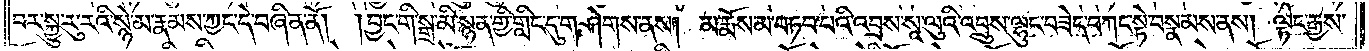བར་སྐྱུ་རུ་རའི་སྙེ་མ་རྣམས་ཀྱང་དེ་བཞིན་ནོ། །བྱང་གི་སྒྲ་མི་སྙན་གྱི་གླིང་དུ་གཤེགས་ནས། མ་རྨོས་མ་བཏབ་པའི་འབྲས་སཱ་ལུའི་འབྲུས་ལྷུང་བཟེད་བཀང་སྟེ་བསྣམས་ནས། ལྟེང་རྒྱས་
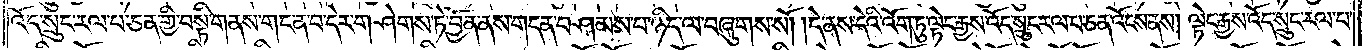འོད་སྲུང་རལ་པ་ཅན་གྱི་བསྟི་གནས་གང་ན་བ་དེར་གཤེགས་ཏེ་བྱོན་ནས་གདན་བཤམས་པ་ཉིད་ལ་བཞུགས་སོ། །དེ་ནས་དེའི་འོག་ཏུ་ལྟེང་རྒྱས་འོད་སྲུང་རལ་པ་ཅན་འོངས་ནས། ལྟེང་རྒྱས་འོད་སྲུང་རལ་པ་
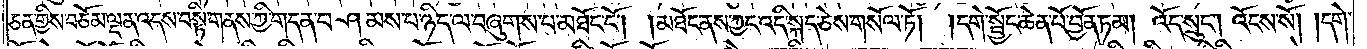ཅན་གྱིས་བཅོམ་ལྡན་འདས་བསྟི་གནས་ཀྱི་གདན་བཤམས་པ་ཉིད་ལ་བཞུགས་པ་མཐོང་ངོ༌། །མཐོང་ནས་ཀྱང་འདི་སྐད་ཅེས་གསོལ་ཏོ། །དགེ་སྦྱོང་ཆེན་པོ་བྱོན་ཏམ། འོད་སྲུང༌། འོངས་སོ། །དགེ་
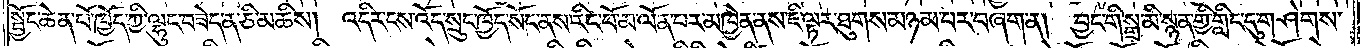སྦྱོང་ཆེན་པོ་ཁྱོད་ཀྱི་ལྷུང་བཟེད་ན་ཅི་མཆིས། འདིར་ངས་འོད་སྲུང་ཁྱོད་སོང་ནས་རིང་པོ་མ་ལོན་པར་མཁྱེན་ནས་ཇི་ལྟར་ཐུགས་མཉམ་པར་བཞག་ན། བྱང་གི་སྒྲ་མི་སྙན་གྱི་གླིང་དུ་གཤེགས་
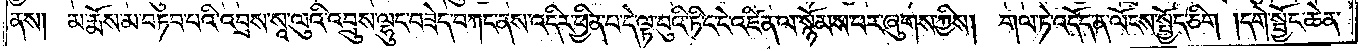ནས། མ་རྨོས་མ་བཏབ་པའི་འབྲས་སཱ་ལུའི་འབྲུས་ལྷུང་བཟེད་བཀང་ནས་འདིར་ཕྱིན་པ་དེ་ལྟ་བུའི་ཏིང་ངེ་འཛིན་ལ་སྙོམས་པར་ཞུགས་ཀྱིས། གལ་ཏེ་འདོད་ན་ལོངས་སྤྱོད་ཅིག །དགེ་སྦྱོང་ཆེན་
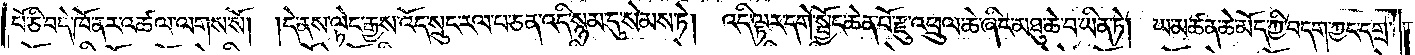པོ་ཅི་བདེ་ཁོ་ནར་འཚལ་ལགས་སོ། །དེ་ནས་ལྟེང་རྒྱས་འོད་སྲུང་རལ་པ་ཅན་འདི་སྙམ་དུ་སེམས་ཏེ། འདི་ལྟར་དགེ་སྦྱོང་ཆེན་པོ་རྫུ་འཕྲུལ་ཆེ་ཞིང་མཐུ་ཆེ་བ་ཡིན་ཏེ། ཡ་མཚན་ཆེ་མོད་ཀྱི་བདག་ཀྱང་དགྲ་
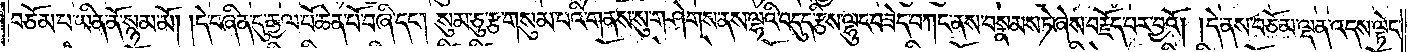བཅོམ་པ་ཡིན་ནོ་སྙམ་མོ། །དེ་བཞིན་དུ་རྒྱལ་པོ་ཆེན་པོ་བཞི་དང༌། སུམ་ཅུ་རྩ་གསུམ་པའི་གནས་སུ་གཤེགས་ནས་ལྷའི་བདུད་རྩིས་ལྷུང་བཟེད་བཀང་ནས་བསྣམས་ཏེ་ཞེས་བརྗོད་པར་བྱའོ། །དེ་ནས་བཅོམ་ལྡན་འདས་ལྟེང་
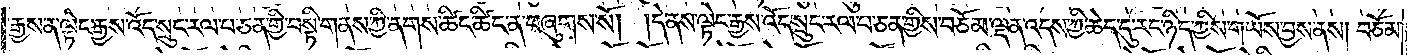རྒྱས་ན་ལྟེང་རྒྱས་འོད་སྲུང་རལ་པ་ཅན་གྱི་བསྟི་གནས་ཀྱི་ནགས་ཚིང་ཚིང་ན་བཞུགས་སོ། །དེ་ནས་ལྟེང་རྒྱས་འོད་སྲུང་རལ་པ་ཅན་གྱིས་བཅོམ་ལྡན་འདས་ཀྱི་ཆེད་དུ་རང་ཉིད་ཀྱིས་གཡོས་བྱས་ནས། བཅོམ་
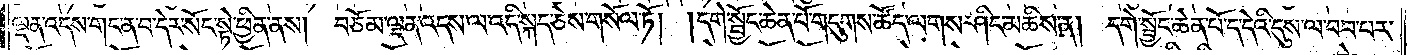ལྡན་འདས་གང་ན་བ་དེར་སོང་སྟེ་ཕྱིན་ནས། བཅོམ་ལྡན་འདས་ལ་འདི་སྐད་ཅེས་གསོལ་ཏོ། །དགེ་སྦྱོང་ཆེན་པོ་གདུགས་ཚོད་ལགས་ཤིང་མཆིས་ན། དགེ་སྦྱོང་ཆེན་པོ་ད་དེའི་དུས་ལ་བབ་པར་
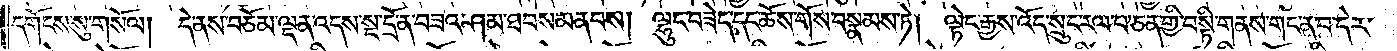དགོངས་སུ་གསོལ། དེ་ནས་བཅོམ་ལྡན་འདས་སྔ་དྲོ་ན་བཟའ་ཤམ་ཐབས་མནབས། ལྷུང་བཟེད་དང་ཆོས་གོས་བསྣམས་ཏེ། ལྟེང་རྒྱས་འོད་སྲུང་རལ་པ་ཅན་གྱི་བསྟི་གནས་གང་ན་བ་དེར་
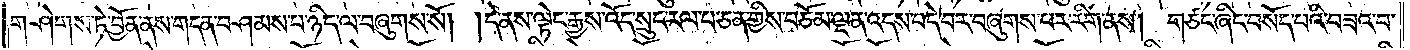གཤེགས་ཏེ་བྱོན་ནས་གདན་བཤམས་པ་ཉིད་ལ་བཞུགས་སོ། །དེ་ནས་ལྟེང་རྒྱས་འོད་སྲུང་རལ་པ་ཅན་གྱིས་བཅོམ་ལྡན་འདས་བདེ་བར་བཞུགས་པར་རིག་ནས། གཙང་ཞིང་བསོད་པའི་བཟའ་བ་
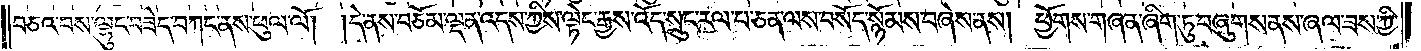བཅའ་བས་ལྷུང་བཟེད་བཀང་ནས་ཕུལ་ལོ། །དེ་ནས་བཅོམ་ལྡན་འདས་ཀྱིས་ལྟེང་རྒྱས་འོད་སྲུང་རལ་པ་ཅན་ལས་བསོད་སྙོམས་བཞེས་ནས། ཕྱོགས་གཞན་ཞིག་ཏུ་བཞུགས་ནས་ཞལ་ཟས་ཀྱི་
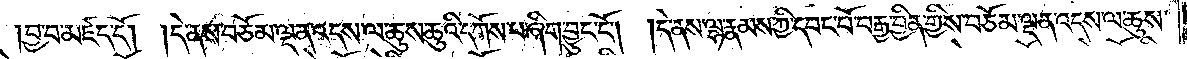བྱ་བ་མཛད་དོ། །དེ་ནས་བཅོམ་ལྡན་འདས་ལ་ཆུས་ཆུའི་དགོས་པ་ཞིག་བྱུང་ངོ༌། །དེ་ནས་ལྷ་རྣམས་ཀྱི་དབང་པོ་བརྒྱ་བྱིན་གྱིས་བཅོམ་ལྡན་འདས་ལ་ཆུས་
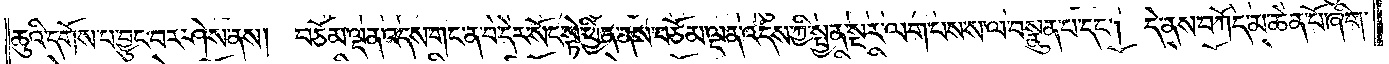ཆུའི་དགོས་པ་བྱུང་བར་ཤེས་ནས། བཅོམ་ལྡན་འདས་གང་ན་བ་དེར་སོང་སྟེ་ཕྱིན་ནས་བཅོམ་ལྡན་འདས་ཀྱི་སྤྱན་སྔར་ལག་པས་ས་ལ་བསྣུན་པ་དང༌། དེ་ནས་བཀོད་མ་ཆེན་པོ་ཞིག་
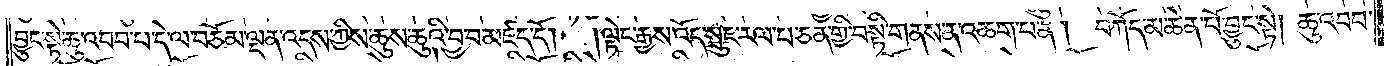བྱུང་སྟེ་ཆུ་འབབ་པ་དེ་ལ་བཅོམ་ལྡན་འདས་ཀྱིས་ཆུས་ཆུའི་བྱ་བ་མཛད་དོ། །ལྟེང་རྒྱས་འོད་སྲུང་རལ་པ་ཅན་གྱི་བསྟི་གནས་ན་འཆག་པ་ན། བཀོད་མ་ཆེན་པོ་བྱུང་སྟེ། ཆུ་འབབ་
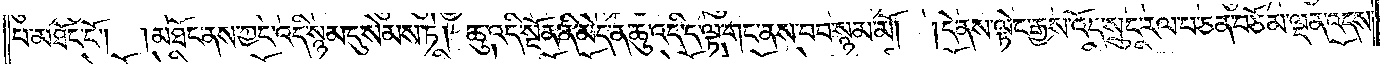པ་མཐོང་ངོ༌། །མཐོང་ནས་ཀྱང་འདི་སྙམ་དུ་སེམས་ཏེ། ཆུ་འདི་སྔོན་ནི་མེད་ན་ཆུ་འདི་ད་ལྟ་གང་ནས་བབ་སྙམ་མོ། །དེ་ནས་ལྟེང་རྒྱས་འོད་སྲུང་རལ་པ་ཅན་བཅོམ་ལྡན་འདས་
